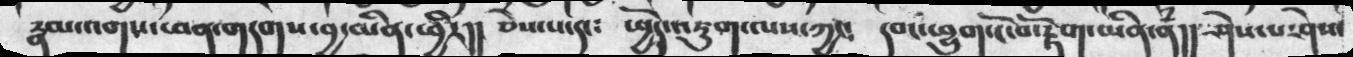རྣམ་འགས་ཕན་གདགས་བྱ་མིན་ཕྱིར།། ཅེས་པ་དང༴ ཕྱེད་འཇུག་ལས་ཀྱང༴ དབང་ཕྱུག་ངོ་བོ་རྟོག་མིན་ནཾ།། ཤེས་པ་ཤེས་
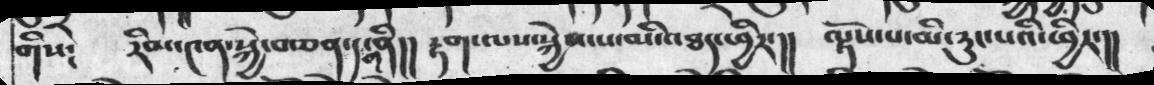གིས༴     རིམ་༤ན་སྐྱེ་བ་ཅན་དག་ནི།།    རྟག་ལས་སྐྱེས་པ་མི་འཐད་ཕྱིར་།།   ལྟོས་པ་མི་རུང་པའི་ཕྱིར་།།
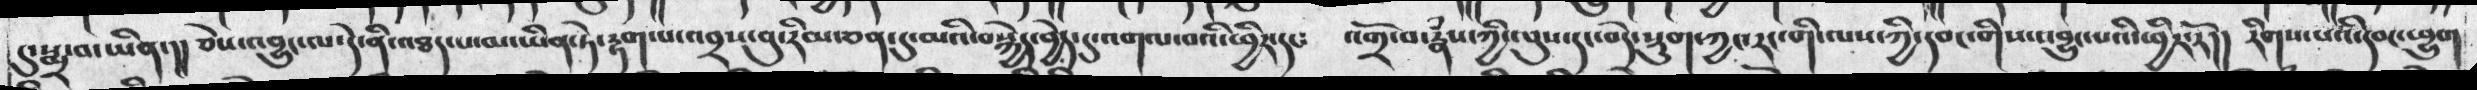དུ་སྨྲ་བ་ཡིན་།། ཅེས་འབྱུང་ལ་དེ་ནི་འཐད་པ་མ་ཡིན་ཏེ་རྟག་པ་འབྲས་བུ་རིམ་ཅན་དུ་མའི་སྐྱེད་བྱེད་དུ་འགལ་བའི་ཕྱིར་དང༴ འགྲོ་བ་རྣཾས་ཀྱི་ལུས་དང་བདེ་སྡུག་ཀྱང་རང་གི་ལས་ཀྱི་དབང་གིས་འབྱུང་པའི་ཕྱིར་རོ།། རིགས་པའི་དབང་ཕྱུག
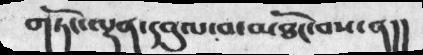གཏོང་ལྡན་དབུལ་བ་མཐོང་བས་ན།།
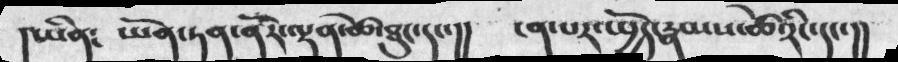།ཡིན༴ ཡོན་ཏན་ནོར་ལྡན་ཚེ་ཐུང་དང་།། ངན་པར་སྤྱོད་རྣམས་ཚེ་རིང་དང་།།
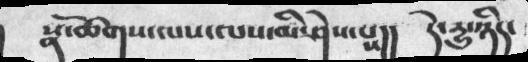སྣ་ཚོགས་ལས་ལས་མི་ཤེས་པས།།  དེ་དྱུ་ཉིད་
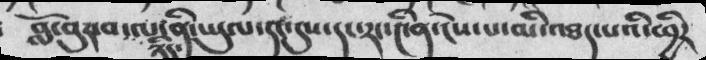བློ་བུར་བ་ཉིད་ལ་ནི་ཡུལ་དང་དུས་དང་རང་༤ིན་ངེས་པ་མི་འཐད་པའི་ཕྱིར
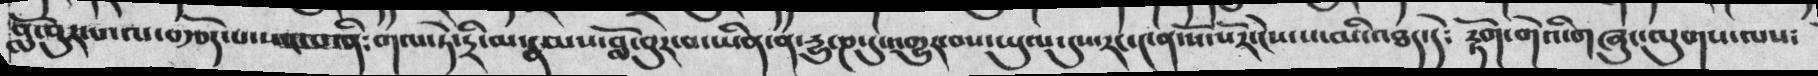བློ་བུར་པ་ལ་བརྩོད་པ་སང་པ་ནི༴   གལ་ཏེ་དྲི་མ་རྣམས་བློ་བུར་བ་ཡིན་ན་རྱུ་ཎ་དུས་གྱུར་བས་ཡུལ་དུས་རང་༤ན་སོ་སོར་ངེས་པ་མི་འཐད་དེ༴   རྟོག་གེའི་གཞུང་ལུགས་ལས༴
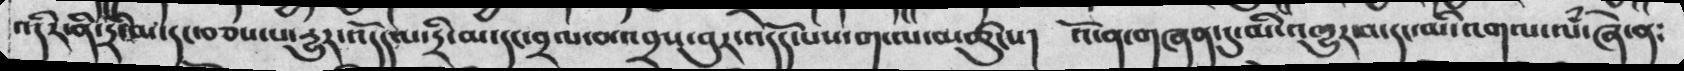འདིར་ནི་དྲི་མ་དང་བཅས་པ་རྱུར་འདོད་པ་དྲི་མ་དང་བྲལ་བ་འབྲས་བུར་འདོད་པས་ག་ལ་མཚུངས། འོ་ན་གཞན་དུ་མའི་འགྱུར་བ་དང་མི་འགལ་ལཾ་ཞེ་ན༴
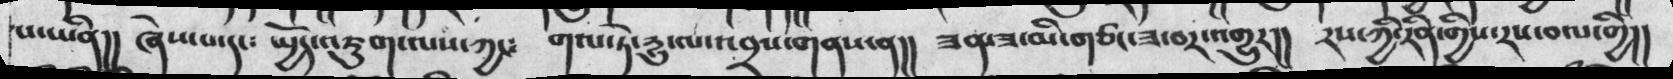པ་ཡིན།། ཞེས་པ་དང༴ སྤྱོད་འཇུག་ལས་ཀྱང༴ གལ་ཏེ་རྱུ་ལ་འབྲས་གནས་ན།། ཟན་ཟ་མི་གཙང་ཟ་བར་འགྱུར།། རས་ཀྱི་རིན་གྱིས་རས་བལ་གྱི།།
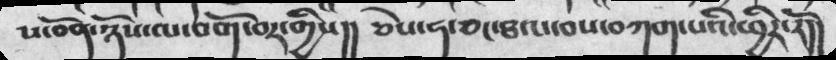ས་བོན་ཉོས་ལ་བགོ་བར་གྱིས།། ཅེས་ཧ་ཅང་ཐལ་བས་བཀག་པའི་ཕྱིར་རོ།།
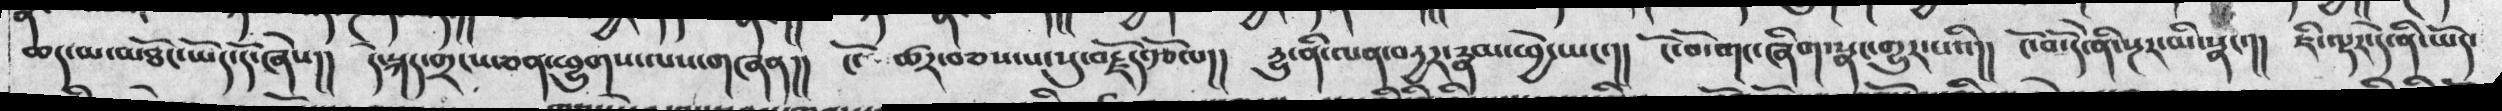ཆད་མ་མཐོང་ཡོད་དོ་ཞེས།། དེ་སྐད་གྲངས་ཅན་ཕྱུགས་ལས་གཞན།། ངོ་མཚར་བཅས་པ་སུ་བརྗོད་རྩོལ།། རྱུ་ནི་ལན་བརྱུར་རྣམ་ཕྱེ་ཡང་།། ངོ་བོ་གང་ཞིག་སྣང་གྱུར་པའི།། ངོ་བོ་དེ་ནི་སྔར་མི་སྣང་།། ཇི་ལྟར་དེ་ནི་ཡོད་
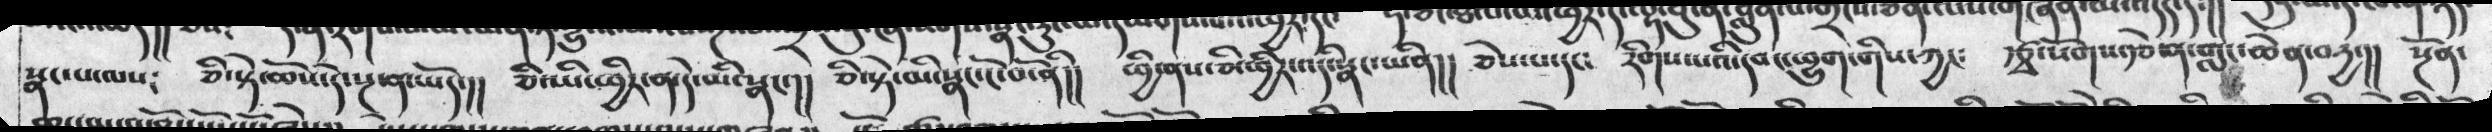སྣང་པ་ལ༴  ཅི་སྟེ་ཆོས་དེ་སྔ་ན་ཡོད་།།  ཅི་ཡི་ཕྱིར་ན་དེ་མི་སྣང་།།  ཅི་སྟེ་མི་སྣང་ངོ་བོ་ནི།།  ཕྱི་ནས་ཅི་ཕྱིར་འདི་སྣང་ཡིན།།  ཅེས་པ་དང༴   རིགས་པའི་དབང་ཕྱུག་གིས་ཀྱང༴   རྩྭ་སོགས་རྩེ་ན་གླང་ཆེན་བདྱ་།།  སྔོན་
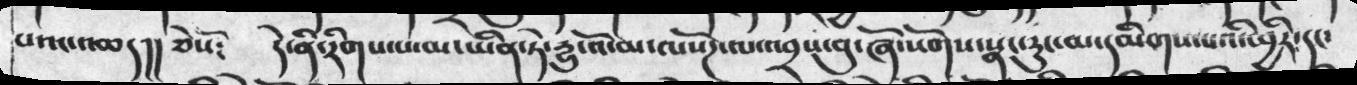པའང་འཆད།།  ཅེསོ༴  དེ་ནི་རིགས་པ་མ་ཡིན་ཏེ་རྱུ་འོ་མ་ལསོཌ་ལ་འབྲས་བུ་ཞོ་སོགས་སྣང་རུང་མ་དམིགས་པའི་ཕྱིར་དང་
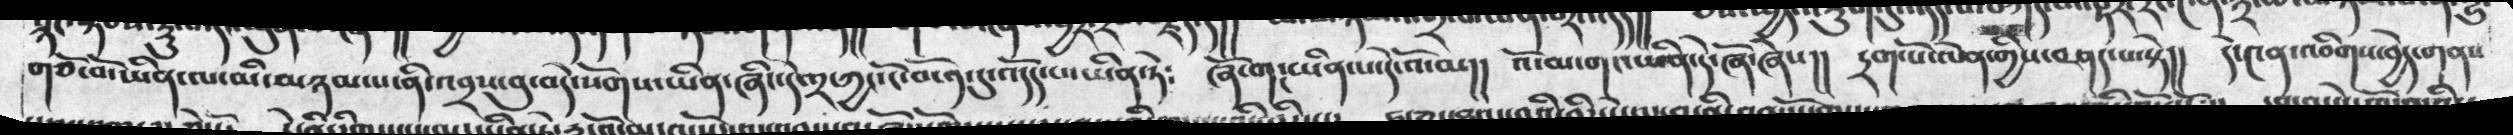གཙོ་བོ་ཡིན་ལ་མི་མཉམ་པ་ནི་འབྲས་བུ་བདེ་སོགས་ཡིན་ཞིང་དེ་༢་ཀྱང་ངོ་བོ་༡་དུ་འདོད་པ་ཡིན་ཏེ༴   ཞོ་གང་ཡིན་པ་དེ་འོ་མ།།  འོ་མ་གང་ཡིན་དེ་ཞོ་ཞེས།།  དྲག་པོ་ལེན་གྱིས་བཤད་པ་སྟེ།།   དེ་༤ན་འབིགས་བྱེད་གནས
